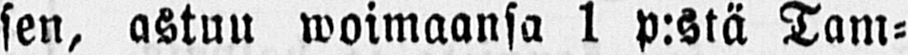sen, astuu woimaansa 1 p:stä Tam-
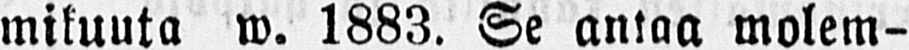mikuuta w. 1883. Se antaa molem-
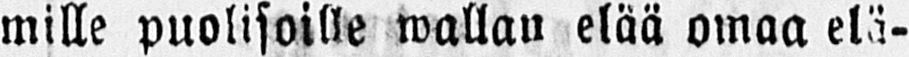mille puolisoille wallan elää omaa elä-
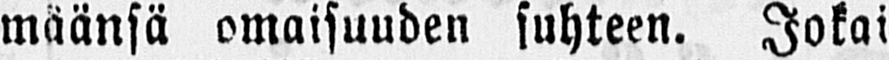määnsä omaisuuden suhteen. Jokai-
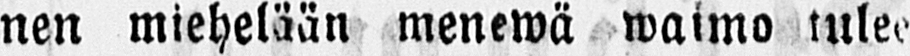nen miehelään menewä waimo tulee
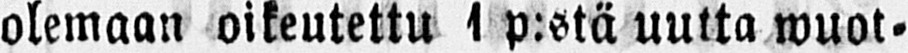olemaan oikeutettu 1 p:stä uutta wuot-
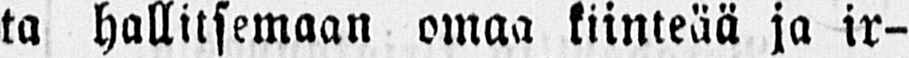ta hallitsemaan omaa kiinteää ja ir-
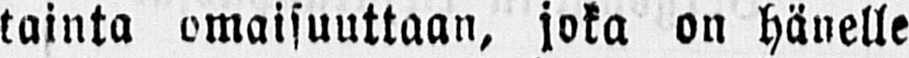tainta omaisuuttaan, joka on hänelle
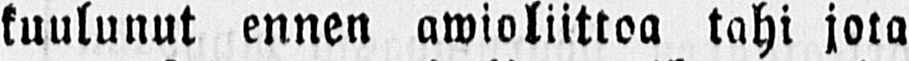kuulunut ennen awioliittoa tahi jota
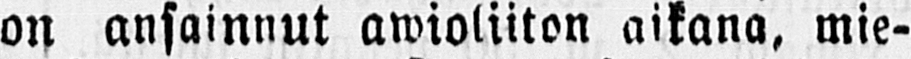on ansainnut awioliiton aikana, mie-
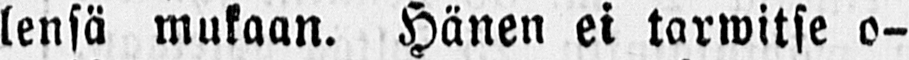lensä mukaan. Hänen ei tarwitse o-
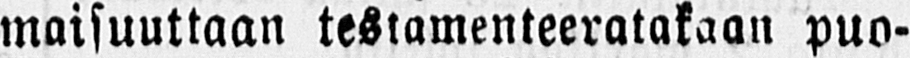maisuuttaan testamenteeratakaan puo-
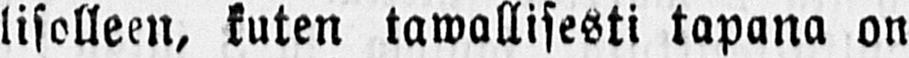lisolleen, kuten tawallisesti tapana on
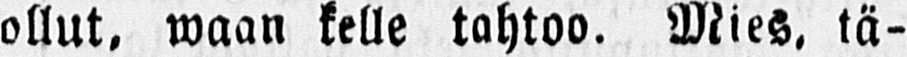ollut, waan kelle tahtoo. Mies, tä-
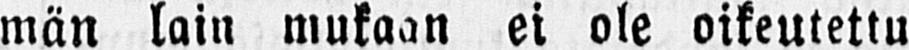män lain mukaan ei ole oikeutettu
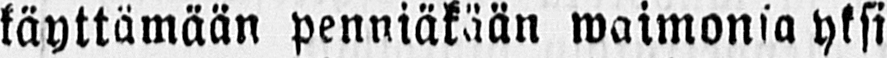käyttämään penniäkään waimonsa yksi
